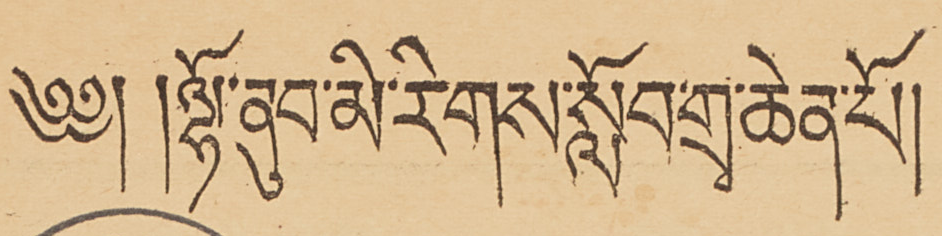༄༅། །ལྷོ་ནུབ་མི་རིགས་སློབ་གྲྭ་ཆེན་པོ།
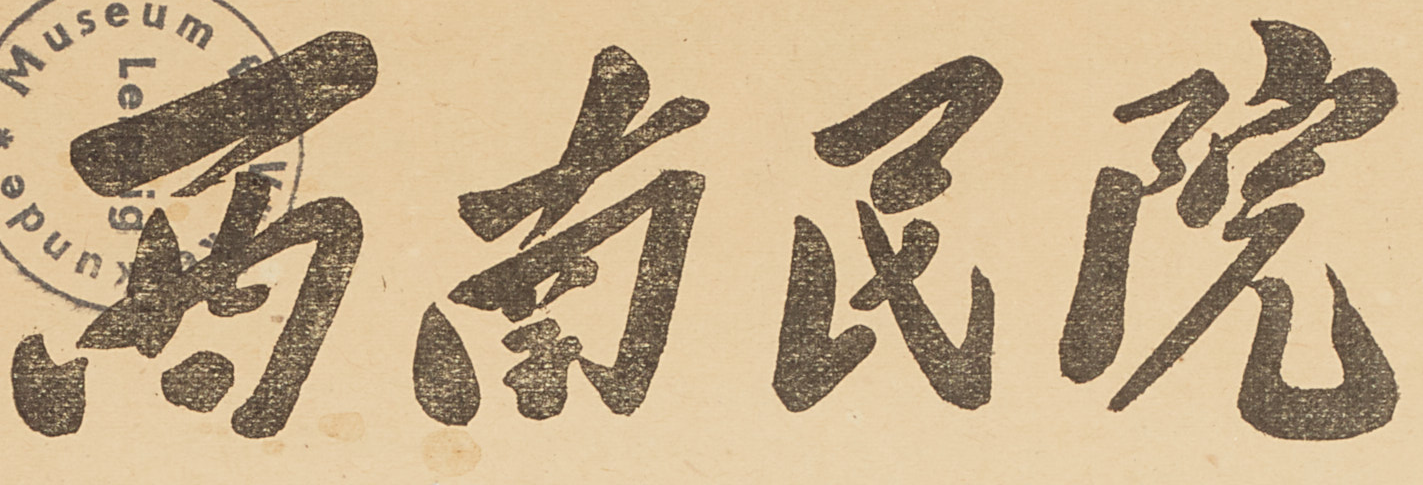西南民院
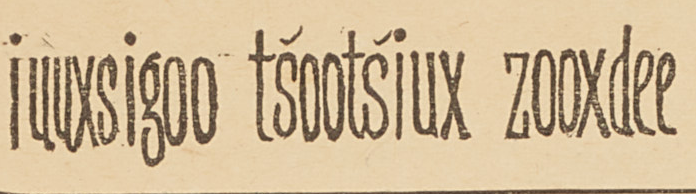iuuxsigoo ts'oots'iux zooxdee
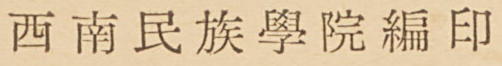西南民族學院編印
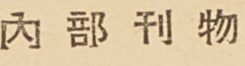內部刊物
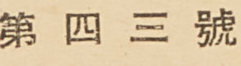第四三號
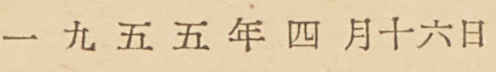一九五五年四月十六日
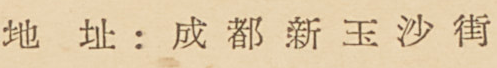地址：成都新玉沙街
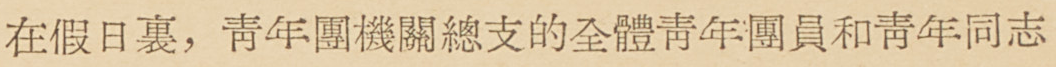在假日裏，靑年團機關總支的全體靑年團員和靑年同志
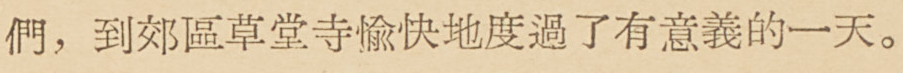們，到郊區草堂寺愉快地度過了有意義的一天。
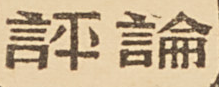評論
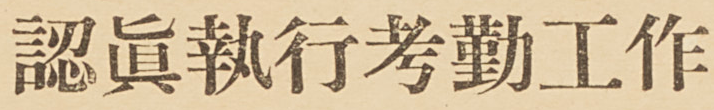認眞執行考勤工作
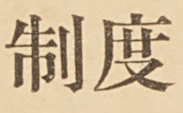制度
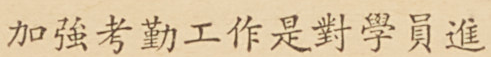加強考勤工作是對學員進
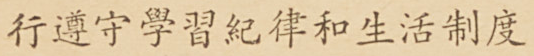行遵守學習紀律和生活制度
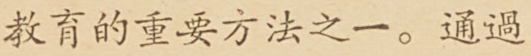教育的重要方法之一。通過
